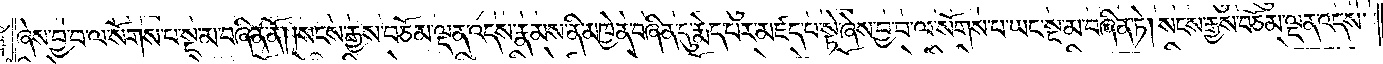ཞེས་བྱ་བ་ལ་སོགས་པ་སྔ་མ་བཞིན་ནོ། །སངས་རྒྱས་བཅོམ་ལྡན་འདས་རྣམས་ནི་མཁྱེན་བཞིན་དུ་རྨེད་པར་མཛད་པ་སྟེ་ཞེས་བྱ་བ་ལ་སོགས་པ་ཡང་སྔ་མ་བཞིན་ཏེ། སངས་རྒྱས་བཅོམ་ལྡན་འདས་
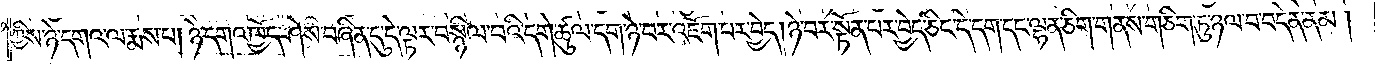ཀྱིས་ཉེ་དགའ་ལ་སྨྲས་པ། ཉེ་དགའ་ཁྱེད་ཤེས་བཞིན་དུ་དེ་ལྟར་བསྙིལ་བའི་དགེ་ཚུལ་དག་ཉེ་བར་འཇོག་པར་བྱེད། ཉེ་བར་སྟོན་པར་བྱེད་ཅིང་དེ་དག་དང་ལྷན་ཅིག་གནས་གཅིག་ཏུ་ཉལ་བ་བདེན་ནམ།
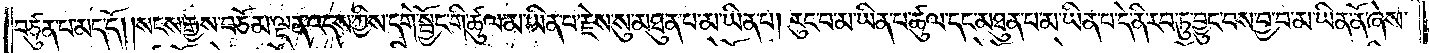བཙུན་པ་མད་དོ། །སངས་རྒྱས་བཅོམ་ལྡན་འདས་ཀྱིས་དགེ་སྦྱོང་གི་ཚུལ་མ་ཡིན་པ་རྗེས་སུ་མཐུན་པ་མ་ཡིན་པ། རུང་བ་མ་ཡིན་པ་ཚུལ་དང་མཐུན་པ་མ་ཡིན་པ་དེ་ནི་རབ་ཏུ་བྱུང་བས་བྱ་བ་མ་ཡིན་ནོ་ཞེས་
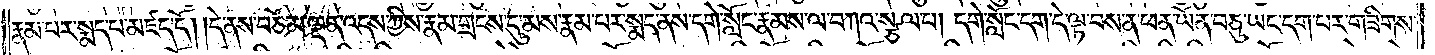རྣམ་པར་སྨད་པ་མཛད་དོ། །དེ་ནས་བཅོམ་ལྡན་འདས་ཀྱིས་རྣམ་གྲངས་དུ་མས་རྣམ་པར་སྨད་ནས་དགེ་སློང་རྣམས་ལ་བཀའ་སྩལ་པ། དགེ་སློང་དག་དེ་ལྟ་བས་ན་ཕན་ཡོན་བཅུ་ཡང་དག་པར་གཟིགས་
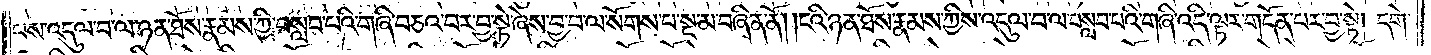པས་འདུལ་བ་ལ་ཉན་ཐོས་རྣམས་ཀྱི་བསླབ་པའི་གཞི་བཅའ་བར་བྱ་སྟེ་ཞེས་བྱ་བ་ལ་སོགས་པ་སྔ་མ་བཞིན་ནོ། །ངའི་ཉན་ཐོས་རྣམས་ཀྱིས་འདུལ་བ་ལ་བསླབ་པའི་གཞི་འདི་ལྟར་གདོན་པར་བྱ་སྟེ། དགེ་
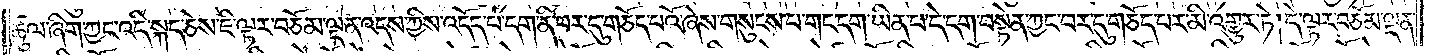ཚུལ་ཞིག་ཀྱང་འདི་སྐད་ཅེས་ཇི་ལྟར་བཅོམ་ལྡན་འདས་ཀྱིས་འདོད་པ་དག་ནི་བར་དུ་གཅོད་པའོ་ཞེས་གསུངས་པ་གང་དག་ཡིན་པ་དེ་དག་བསྟེན་ཀྱང་བར་དུ་གཅོད་པར་མི་འགྱུར་ཏེ། དེ་ལྟར་བཅོམ་ལྡན་
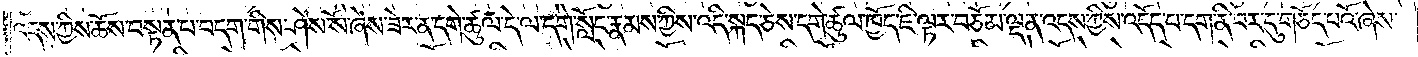འདས་ཀྱིས་ཆོས་བསྟན་པ་བདག་གིས་ཤེས་སོ་ཞེས་ཟེར་ན་དགེ་ཚུལ་དེ་ལ་དགེ་སློང་རྣམས་ཀྱིས་འདི་སྐད་ཅེས་དགེ་ཚུལ་ཁྱོད་ཇི་ལྟར་བཅོམ་ལྡན་འདས་ཀྱིས་འདོད་པ་དག་ནི་བར་དུ་གཅོད་པའོ་ཞེས་
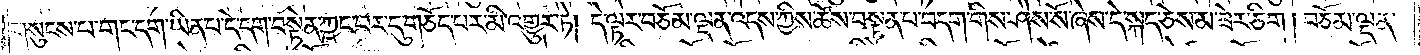གསུངས་པ་གང་དག་ཡིན་པ་དེ་དག་བསྟེན་ཀྱང་བར་དུ་གཅོད་པར་མི་འགྱུར་ཏེ། དེ་ལྟར་བཅོམ་ལྡན་འདས་ཀྱིས་ཆོས་བསྟན་པ་བདག་གིས་ཤེས་སོ་ཞེས་དེ་སྐད་ཅེས་མ་ཟེར་ཅིག །བཅོམ་ལྡན་
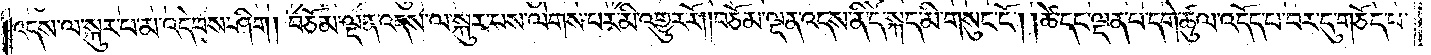འདས་ལ་སྐུར་པ་མ་འདེབས་ཤིག །བཅོམ་ལྡན་འདས་ལ་སྐུར་བས་ལེགས་པར་མི་འགྱུར་རོ། །བཅོམ་ལྡན་འདས་ནི་དེ་སྐད་མི་གསུང་ངོ༌། །ཚེ་དང་ལྡན་པ་དགེ་ཚུལ་འདོད་པ་བར་དུ་གཅོད་པ་
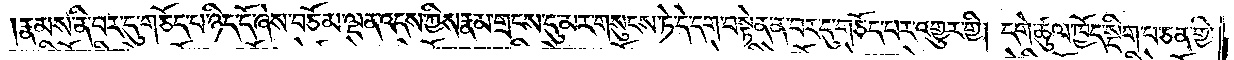རྣམས་ནི་བར་དུ་གཅོད་པ་ཉིད་དོ་ཞེས་བཅོམ་ལྡན་འདས་ཀྱིས་རྣམ་གྲངས་དུ་མར་གསུངས་ཏེ་དེ་དག་བསྟེན་ན་བར་དུ་གཅོད་པར་འགྱུར་གྱི། དགེ་ཚུལ་ཁྱོད་སྡིག་པ་ཅན་གྱི་
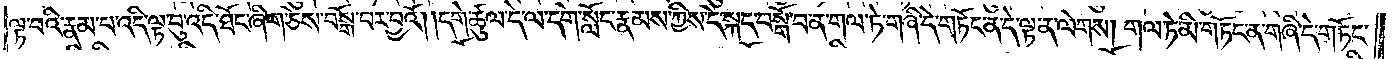ལྟ་བའི་རྣམ་པ་འདི་ལྟ་བུ་འདི་ཐོང་ཞིག་ཅེས་བསྒོ་བར་བྱའོ། །དགེ་ཚུལ་དེ་ལ་དགེ་སློང་རྣམས་ཀྱིས་དེ་སྐད་བསྒོ་བ་ན་གལ་ཏེ་གཞི་དེ་གཏོང་ན་དེ་ལྟ་ན་ལེགས། གལ་ཏེ་མི་གཏོང་ན་གཞི་དེ་གཏོང་
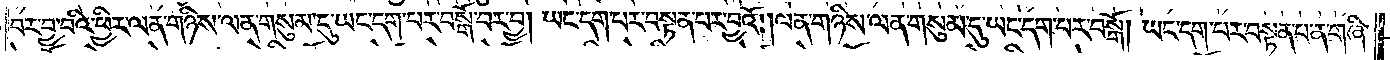བར་བྱ་བའི་ཕྱིར་ལན་གཉིས་ལན་གསུམ་དུ་ཡང་དག་པར་བསྒོ་བར་བྱ། ཡང་དག་པར་བསྟན་པར་བྱའོ། །ལན་གཉིས་ལན་གསུམ་དུ་ཡང་དག་པར་བསྒོ། ཡང་དག་པར་བསྟན་པ་ན་གཞི་
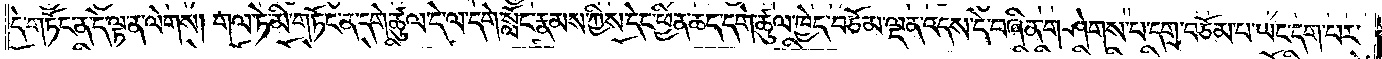དེ་གཏོང་ན་དེ་ལྟ་ན་ལེགས། གལ་ཏེ་མི་གཏོང་ན་དགེ་ཚུལ་དེ་ལ་དགེ་སློང་རྣམས་ཀྱིས་དེང་ཕྱིན་ཆད་དགེ་ཚུལ་ཁྱེད་བཅོམ་ལྡན་འདས་དེ་བཞིན་གཤེགས་པ་དགྲ་བཅོམ་པ་ཡང་དག་པར་
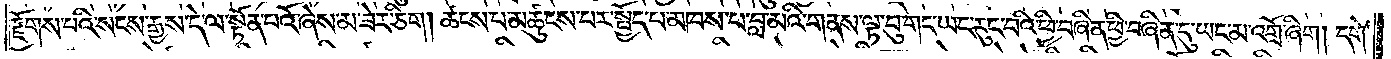རྫོགས་པའི་སངས་རྒྱས་དེ་ལ་སྟོན་པའོ་ཞེས་མ་ཟེར་ཅིག །ཚངས་པ་མཚུངས་པར་སྤྱོད་པ་མཁས་པ་བླ་མའི་གནས་ལྟ་བུ་གང་ཡང་རུང་བའི་ཕྱི་བཞིན་ཕྱི་བཞིན་དུ་ཡང་མ་འགྲོ་ཞིག། དགེ་
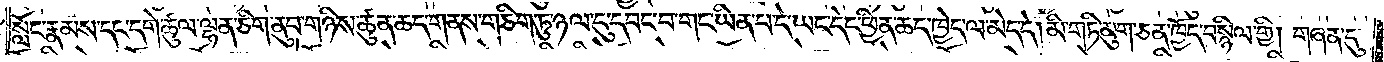སློང་རྣམས་དང་དགེ་ཚུལ་ལྷན་ཅིག་ནུབ་གཉིས་ཚུན་ཆད་གནས་གཅིག་ཏུ་ཉལ་དུ་དབང་བ་གང་ཡིན་པ་དེ་ཡང་དེང་ཕྱིན་ཆད་ཁྱེད་ལ་མེད་དེ། མི་གཏི་མུག་ཅན་ཁྱོད་བསྙིལ་གྱི། གཞན་དུ་
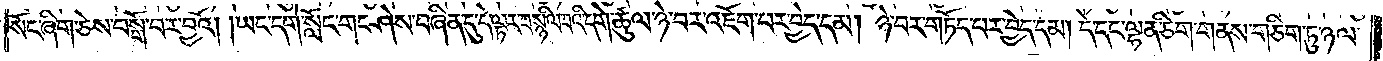སོང་ཞིག་ཅེས་བསྒོ་བར་བྱའོ། །ཡང་དགེ་སློང་གང་ཤེས་བཞིན་དུ་དེ་ལྟར་བསྙིལ་བའི་དགེ་ཚུལ་ཉེ་བར་འཇོག་པར་བྱེད་དམ། ཉེ་བར་གཏོད་པར་བྱེད་དམ། དེ་དང་ལྷན་ཅིག་གནས་གཅིག་ཏུ་ཉལ་
